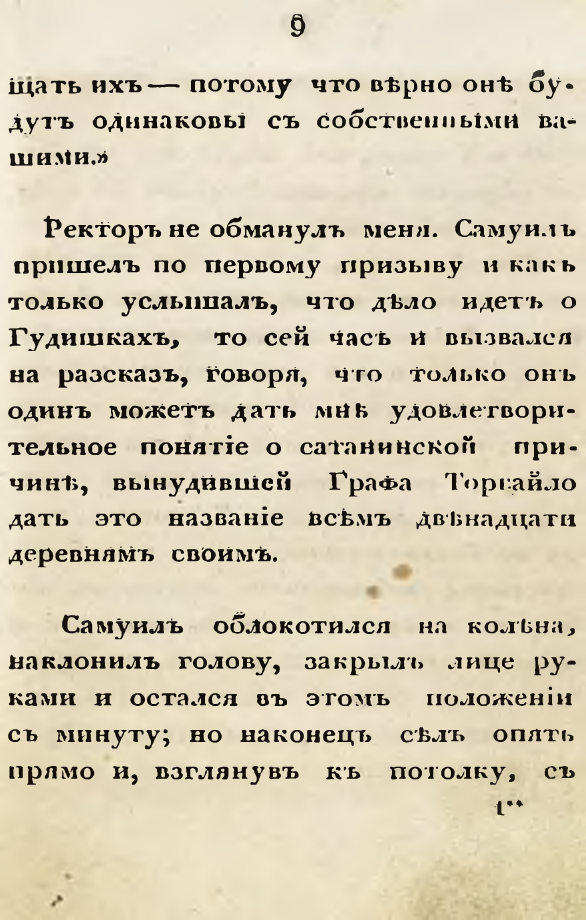9
щать ихъ — потому что вѣрно онѣ будутъ одинаковы съ собственньми вашими.»
Ректоръ не обманулъ меня. Самуилъ пришелъ по первому призыву и какъ только услышалъ, что дѣло идетъ о Гудишкахъ, то сей часъ и вызвался на разсказъ, говоря, что только онъ одинъ можетъ дать мнѣ удовлетворительное понятіе о сатанинской причинѣ, вынудившей Графа Торгайло дать это названіе всѣмъ двѣнадцати деревнямъ своимъ.
Самуилъ облокотился на колѣна, наклонилъ голову, закрылъ лице руками и остался въ этомъ положеніи съ минуту; но наконецъ сѣлъ опять прямо и, взглянувъ къ потолку, съ
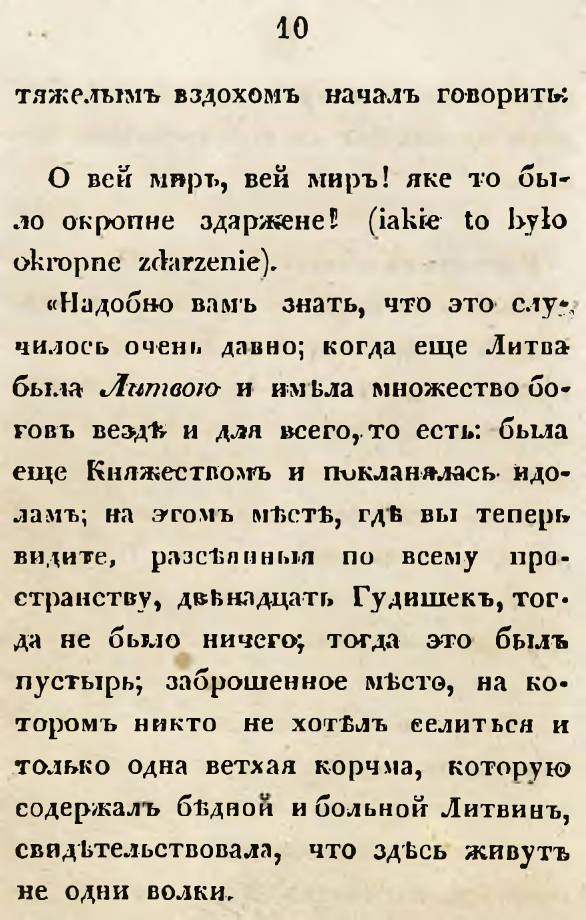10
тяжелымъ вздохомъ началъ говорить:
О вей миръ, вей миръ! яке то было окропне здаржене! (iakie to bylo okropne zdarzenie).
«Надобно вамъ знать, что это случилось очень давно; когда еще Литва была Литвою и имѣла множество боговъ вездѣ и для всего, то есть: была еще Княжествомъ и покланялась идоламъ; на этомъ мѣстѣ, гдѣ вы теперь видите, разсѣянныя по всему пространству, двѣнадцать Гудишекъ, тогда не было ничего; тогда это былъ пустырь; заброшенное мѣсто, на которомъ никто не хотѣлъ селиться и только одна ветхая корчма, которую содержалъ бѣдной и больной Литвинъ, свидѣтельствовала, что здѣсь живутъ не одни волки.
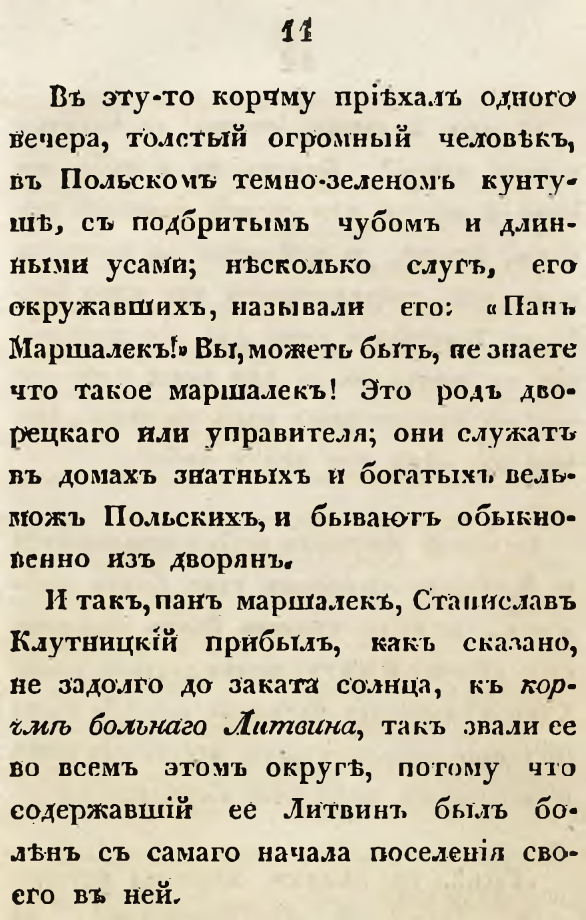11
Въ эту-то корчму пріѣхалъ одного вечера, толстый огромный человѣкъ, въ Польскомъ темно-зеленомъ кунтушѣ, съ подбритымъ чубомъ и длинными усами; нѣсколько слугъ, его окружавшихъ, называли его: «Панъ Маршалекъ!» Вы, можетъ быть, не знаете что такое маршалекъ! Это родъ дворецкаго или управителя; они служатъ въ домахъ знатныхъ и богатыхъ вельможъ Польскихъ, и бываютъ обыкновенно изъ дворянъ.
И такъ, панъ маршалекъ, Станиславъ Клутницкій прибылъ, как сказано, не задолго до заката солнца, къ корчмѣ больнаго Литвина, такъ звали ее во всемъ этомъ округѣ, потому что содержавшій её Литвинъ былъ болѣнъ съ самаго начала поселенія своего въ ней.
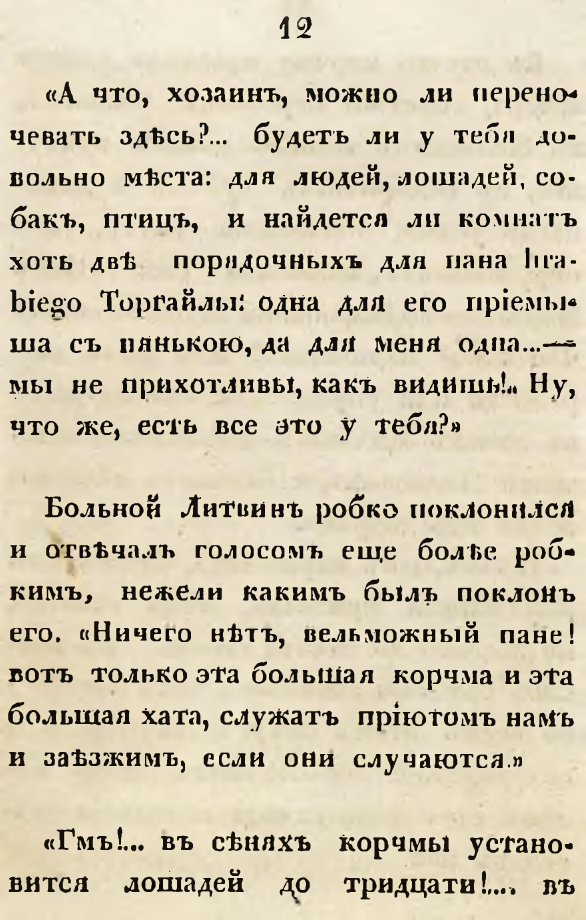12
«А что, хозаинъ, можно ли переночевать здѣсь?... будетъ ли у тебя довольно мѣста: для людей, лошадей, собакъ, птицъ, и найдется ли комнатъ хоть двѣ порядочныхъ для пана hrabiego Торгайлы: одна для его пріемыша съ нянькою, да для меня одна... —мы не прихотливы, какъ видишь!.. Ну, что же, есть все это у тебя?»
Больной Литинъ робко поклонился и отвѣчалъ голосомъ еще болѣе робкимъ, нежели какимъ быль поклонъ его. «Ничего нѣтъ, вельможный пане! вотъ только эта большая корчма и эта большая хата, служатъ пріютомъ намъ и заѣзж имъ, если они случаю тся.»
«Гмъ!... въ сѣняхъ корчмы установится лошадей до тридцати!.. въ
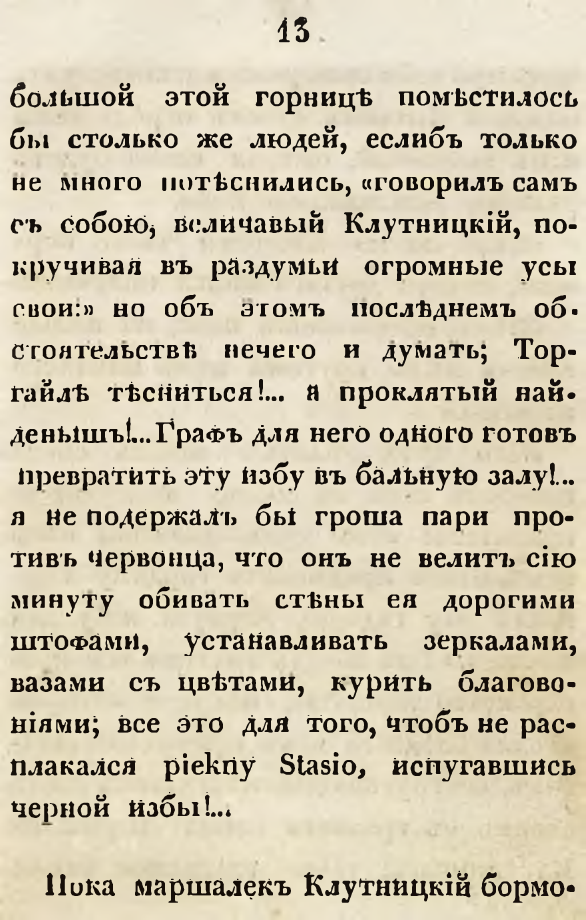13
большой этой горницѣ помѣстилось бы столько же людей, еслибъ только не много потѣснились, «говорилъ самъ съ собою, величавый Клутницкій, покручивая въ раздумьи огромные усы свои:» но объ этомъ послѣднемъ обстоятельствѣ нечего и думать; Торгайлѣ тѣсниться!... я проклятый найденышъ!.. Графъ для него одного готовъ превратить эту избу въ бальную залу!… я не подержалъ бы гроша пари противъ червонца, что онъ не велитъ сію минуту обивать стѣны ея дорогими штофами, устанавливать зеркалами, вазами съ цвѣтами, курить благовоніями; все это для того, чтобъ не расплакался piekny Stasio, испугавшись черной избы!...
Пока маршалекъ Клутницкій бормо-
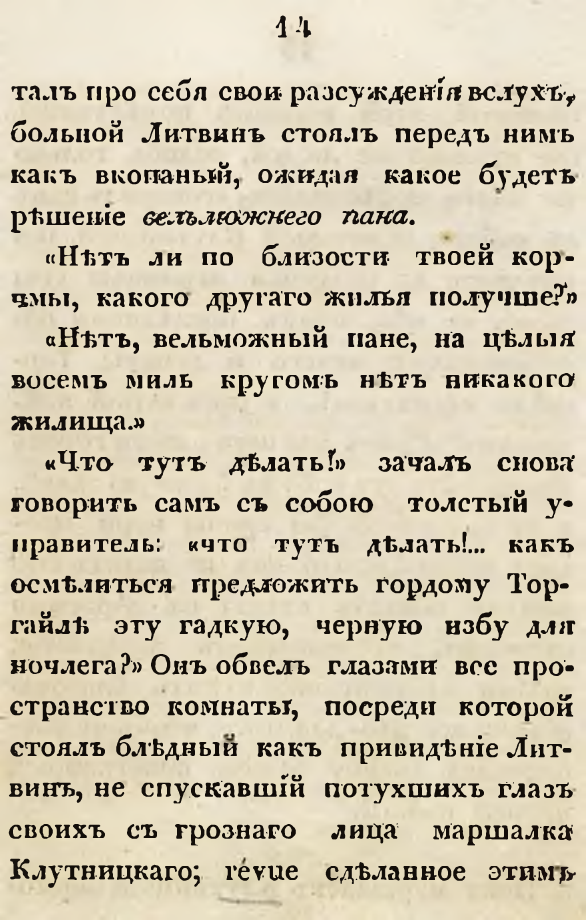14
талъ про себя свои разсужденія вслухъ, больной Литвинъ стоялъ передъ нимъ какъ вкопаный, ожидая какое будетъ рѣшеніе вельможнего пана.
«Нѣтъ ли по близости твоей корчмы, какого другаго жилья получше?»
«Нѣтъ, вельможный пане, на цѣлыя восемь миль кругомъ нѣтъ никакого жилища.»
«Что тутъ дѣлать!» зачалъ снова говорить самъ съ собою толстый управитель: «что тутъ дѣлать!... какъ осмѣлиться предложить гордому Торгайлѣ эту гадкую, черную избу для ночлега?» Онъ обвелъ глазами все пространство комнаты, посреди которой стоялъ блѣдный какъ привидѣніе Литвинъ, не спускавшій потухшихъ глазъ своихъ съ грознаго лица маршалка Клутницкаго; révue сдѣланное этимъ
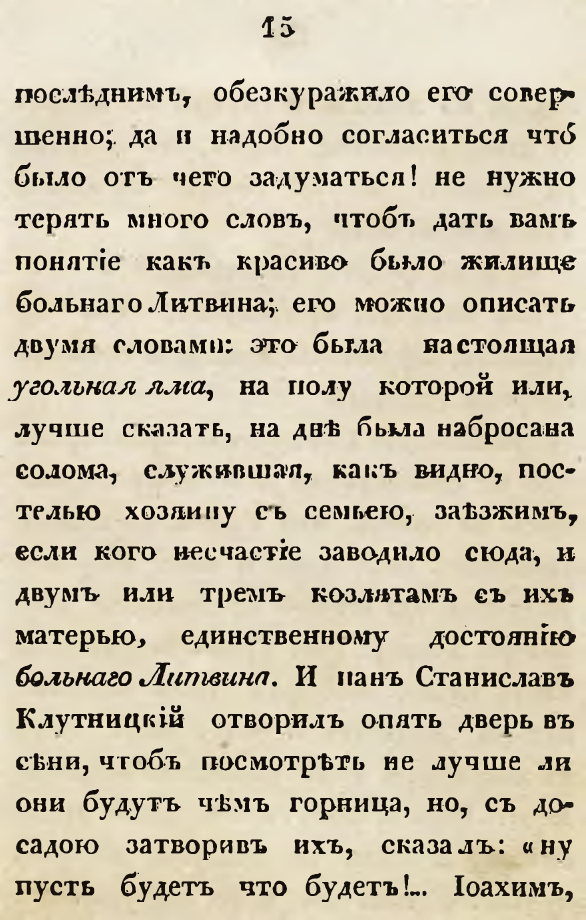15
послѣднимъ, обезкуражило его совершенно; да и надобно согласиться что было отъ чего задуматься! не нужно терять много словъ, чтобъ дать вамъ понятіе какъ красиво было жилище больнаго Литвина; его можно описать двумя словами: это была настоящая угольная яма, на полу которой или, лучше сказать, на днѣ была набросана солома, служившая, какъ видно, постелью хозяину съ семьею, заѣзжимъ, если кого несчастіе заводило сюда, и двумъ или тремъ козлятамъ съ ихъ матерью, единственному достоянію больнаго Литвина. И панъ Станиславъ Клутницкій отворилъ опять дверь въ сѣни, чтобъ посмотрѣть не лучше ли они будутъ чѣмъ горница, но, съ досадою затворивъ ихъ, сказалъ: «ну пусть будетъ что будетъ!… Іоахимъ,
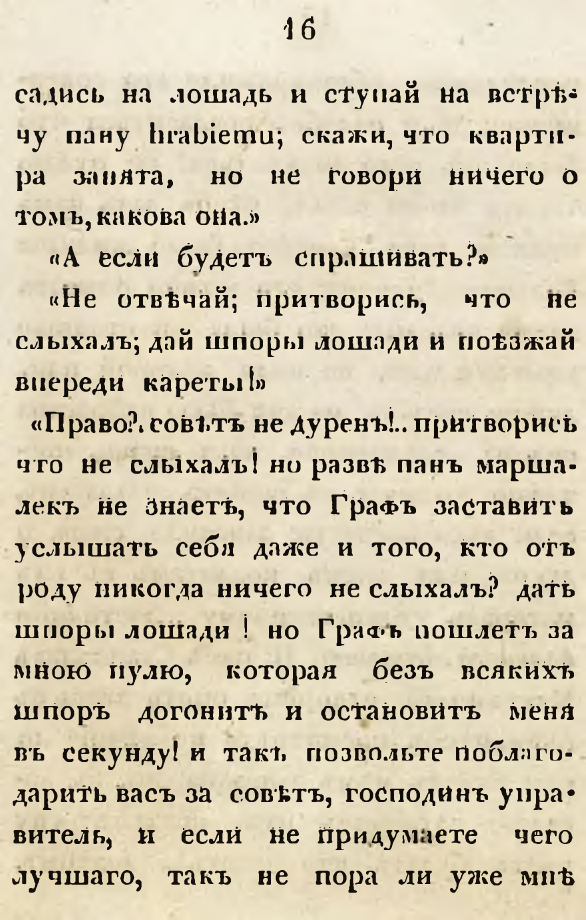16
садись на лошадь и ступай на встрѣчу пану hrabiemu; скажи, что квартира занята, но не говори ничего о томъ, какова она.»
«А если будетъ спрашивать?»
«Не отвѣчай; притворись, что не слыхалъ; дай шпоры лошади и поѣзжай впереди кареты!»
«Право? совѣтъ не дуренъ!.. притворись что не слыхалъ! но развѣ панъ маршалекъ не знаетъ, что Графъ заставитъ услышать себя даже и того, кто отъ роду никогда ничего не слыхалъ? дать шпоры лошади! но Графъ пошлетъ за мною пулю, которая безъ всякихъ шпоръ догонитъ и остановитъ меня въ секунду! и такъ позвольте поблагодарить васъ за совѣтъ, господинъ управитель, и если не придумаете чего лучшаго, такъ не пора ли уже мнѣ